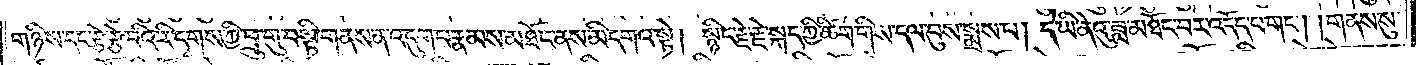གཉིས་དང་རྩེ་རྩེ་བའི་རི་དྭགས་ཀྱི་ཕྲུ་གུ་བསྟི་གནས་ན་འདུག་པ་རྣམས་མཐོང་ནས་མི་དགའ་སྟེ། སྙིང་རྗེ་རྗེ་སྐད་ཀྱི་ཚིག་གིས་དལ་བུས་སྨྲས་པ། དེ་ཡི་ནེའུ་ཟླ་མཐོང་བར་འདོད་པ་གང༌། །གནས་སུ་
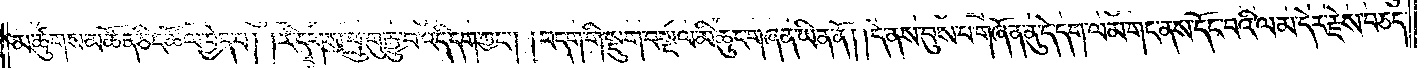མ་ཚུགས་མཚོན་ཅིང་ཚོལ་བྱེད་པ། །རི་དྭགས་ཕྲུ་གུ་རྒྱུ་བ་འདི་དག་ཀྱང༌། །བདག་གི་སྡུག་བསྔལ་མི་ཆུང་གཞན་ཡིན་ནོ། །དེ་ནས་བུས་པ་གཞོན་ནུ་དེ་དག་ལམ་གང་ནས་དོང་བའི་ལམ་དེ་རྗེས་བཅད་
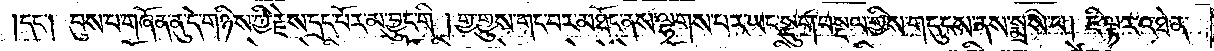།དང༌། བུས་པ་གཞོན་ནུ་དེ་གཉིས་ཀྱི་རྗེས་དྲང་པོར་མ་བྱུང་གི །གྱ་གྱུས་གང་བར་མཐོང་ནས་ལྷགས་པར་ཡང་སྡུག་བསྔལ་གྱིས་གདུངས་ནས་སྨྲས་པ། ཇི་ལྟར་འཐེན་
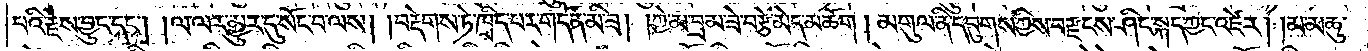པའི་རྗེས་བྱུང་དང༌། །ལ་ལར་མྱུར་དུ་སོང་བ་ལས། །བརྡེགས་ཏེ་ཁྲིད་པར་གདོན་མི་ཟ། །ཀྱེ་མ་བྲམ་ཟེ་བརྩེ་མེད་མཆོག །མགུལ་ནི་དབུགས་ཀྱིས་བརྫངས་ཤིང་སྐད་ཀྱང་འཛེར། །མ་མཆུ་
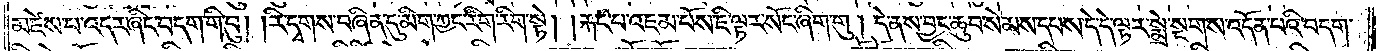མཛེས་པ་འདར་ཞིང་བདག་གི་བུ། །རི་དྭགས་བཞིན་དུ་མིག་ཀྱང་རིག་རིག་སྟེ། །རྐང་པ་འཇམ་པོས་ཇི་ལྟར་སོང་ཞིག་གུ། དེ་ནས་བྱང་ཆུབ་སེམས་དཔས་དེ་དེ་ལྟར་སྨྲེ་སྔགས་འདོན་པའི་བདག་
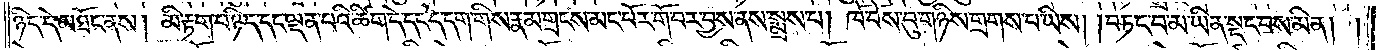ཉིད་དེ་མཐོང་ནས། མི་རྟག་པ་ཉིད་དང་ལྡན་པའི་ཚིག་དེ་དང་དེ་དག་གིས་རྣམ་གྲངས་མང་པོར་གོ་བར་བྱས་ནས་སྨྲས་པ། ཁོ་བོས་བུ་གཉིས་གྲགས་པ་ཡིས། །བཏང་བ་མ་ཡིན་སྡང་བས་མིན། །
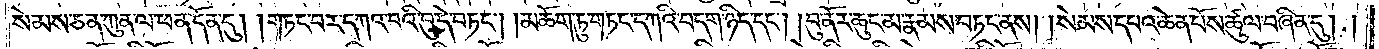སེམས་ཅན་ཀུན་ལ་ཕན་དོན་དུ། །གཏང་བར་དཀའ་བའི་བུ་དེ་བཏང༌། །མཆོག་ཏུ་གཏང་དཀའི་བདག་ཉིད་དང༌། །བུ་ནོར་ཆུང་མ་རྣམས་བཏང་ནས། །སེམས་དཔའ་ཆེན་པོས་ཚུལ་བཞིན་དུ། །
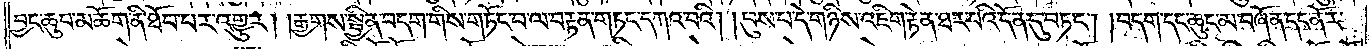བྱང་ཆུབ་མཆོག་ནི་ཐོབ་པར་འགྱུར། །རྒྱགས་སྦྱིན་བདག་གིས་གཏོང་བ་ལ་བརྟན་གཏང་དཀའ་བའི། །བུས་པ་དེ་གཉིས་འཇིག་རྟེན་ཐར་པའི་དོན་དུ་བཏང༌། །བདག་དང་ཆུང་མ་བཞོན་དང་ནོར་
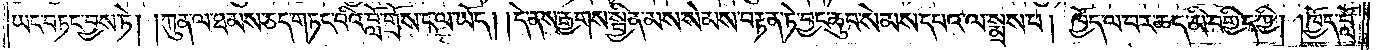ཡང་བཏང་བྱས་ཏེ། །ཀུན་ལ་ཐམས་ཅད་གཏང་བའི་བློ་གྲོས་ང་ལ་ཡོད། །དེ་ནས་རྒྱགས་སྦྱིན་མས་སེམས་བརྟན་ཏེ་བྱང་ཆུབ་སེམས་དཔའ་ལ་སྨྲས་པ། ཁྱོད་ལ་བར་ཆད་མི་བགྱིད་ཀྱི། །ཁྱོད་བློ་
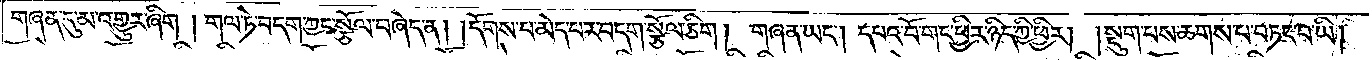གཞན་དུ་མ་འགྱུར་ཞིག །གལ་ཏེ་བདག་ཀྱང་སྩོལ་བཞེད་ན། །དོགས་པ་མེད་པར་བདག་སྩོལ་ཅིག །གཞན་ཡང༌། དཔའ་བོ་གང་ཕྱིར་ཉིད་ཀྱི་ཕྱིར། །སྡུག་པས་ཆགས་པ་བཏང་བ་ཡི། །
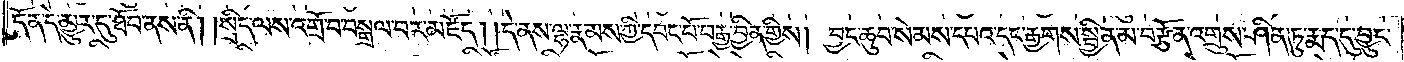དོན་དེ་མྱུར་དུ་ཐོབ་ནས་ནི། །སྲིད་ལས་འགྲོ་བ་བསྒྲལ་བར་མཛོད། །དེ་ནས་ལྷ་རྣམས་ཀྱི་དབང་པོ་བརྒྱ་བྱིན་གྱིས། བྱང་ཆུབ་སེམས་དཔའ་དང་རྒྱགས་སྦྱིན་མ་བརྩོན་འགྲུས་ཤིན་ཏུ་རྨད་དུ་བྱུང་
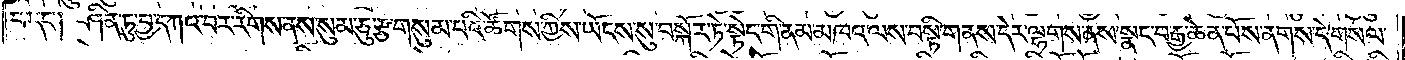བ་དང༌། ཤིན་ཏུ་བྱ་དཀའ་བར་རིགས་ནས་སུམ་ཅུ་རྩ་གསུམ་པའི་ཚོགས་ཀྱིས་ཡོངས་སུ་བསྐོར་ཏེ་སྟེང་གི་ནམ་མཁའ་ལས་བསྟི་གནས་དེར་ལྷགས་ནས་སྣང་བ་རྒྱ་ཆེན་པོས་ནགས་དེ་གསལ་
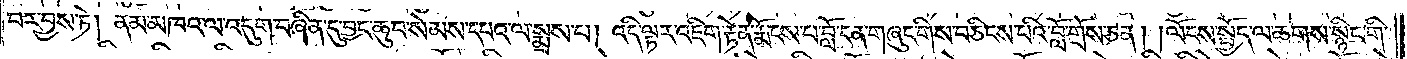བར་བྱས་ཏེ། ནམ་མཁའ་ལ་འདུག་བཞིན་དུ་བྱང་ཆུབ་སེམས་དཔའ་ལ་སྨྲས་པ། འདི་ལྟར་འཇིག་རྟེན་རྨོངས་པ་བློ་ངན་གཞུང་གིས་བཅིངས་པའི་བློ་གྲོས་ཅན། །ལོངས་སྤྱོད་ལ་ཆགས་སྙིང་གི་
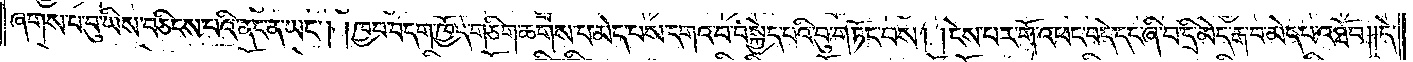ཞགས་པ་བུ་ཡིས་བཅིངས་པའི་ནང་ན་ཡང༌། །ཁྱབ་བདག་ཁྱོད་གཅིག་ཆགས་པ་མེད་པས་དགའ་བ་བསྐྱེད་པའི་བུ་གཏོང་བས། །ངེས་པར་གོ་འཕང་བདེ་དང་ཞི་བ་དྲི་མེད་རྒ་བ་མེད་པ་འཐོབ། །དེ་
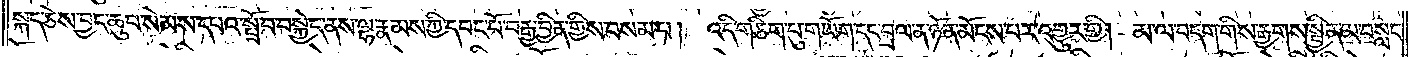སྐད་ཅེས་བྱང་ཆུབ་སེམས་དཔའ་སྤྲོ་བ་བསྐྱེད་ནས་ལྷ་རྣམས་ཀྱི་དབང་པོ་བརྒྱ་བྱིན་གྱིས་བསམ་པ། འདི་གཅིག་པུ་གཡོག་དང་བྲལ་ན་ཉོན་མོངས་པར་འགྱུར་གྱི། མ་ལ་བདག་གིས་རྒྱགས་སྦྱིན་མ་བསླང་
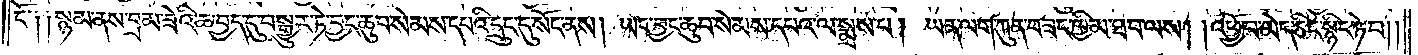ངོ༑ ༑སྙམ་ནས་བྲམ་ཟེའི་ཆ་བྱད་དུ་བསྒྱུར་ཏེ་བྱང་ཆུབ་སེམས་དཔའི་དྲུང་དུ་སོང་ནས། ཡང་བྱང་ཆུབ་སེམས་དཔའ་ལ་སྨྲས་པ། ཡན་ལག་ཀུན་བཟང་ཁྱིམ་ཐབ་ལས། །འཕྱོ་བ་མེད་ཅིང་སྙིང་ཉེ་བ། །
